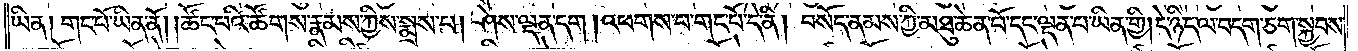ཡིན། གང་པོ་ཡིན་ནོ། །ཚོང་པའི་ཚོགས་རྣམས་ཀྱིས་སྨྲས་པ། ཤེས་ལྡན་དག །འཕགས་པ་གང་པོ་དེ་ནི། བསོད་ནམས་ཀྱི་མཐུ་ཆེན་པོ་དང་ལྡན་པ་ཡིན་གྱི། དེ་ཉིད་ལ་བདག་ཅག་སྐྱབས་
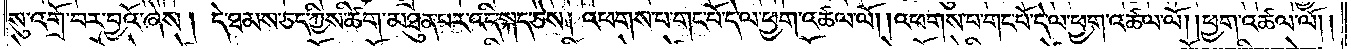སུ་འགྲོ་བར་བྱའོ་ཞེས། དེ་ཐམས་ཅད་ཀྱིས་ཚིག་མཐུན་པར་འདི་སྐད་ཅེས། འཕགས་པ་གང་པོ་དེ་ལ་ཕྱག་འཚལ་ལོ། །འཕགས་པ་གང་པོ་དེ་ལ་ཕྱག་འཚལ་ལོ། །ཕྱག་འཚལ་ལོ། །
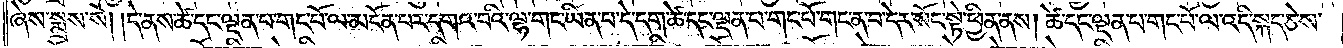ཞེས་སྨྲས་སོ། །དེ་ནས་ཚེ་དང་ལྡན་པ་གང་པོ་ལ་མངོན་པར་དགའ་བའི་ལྷ་གང་ཡིན་པ་དེ་དག་ཚེ་དང་ལྡན་པ་གང་པོ་གང་ན་བ་དེར་སོང་སྟེ་ཕྱིན་ནས། ཚེ་དང་ལྡན་པ་གང་པོ་ལ་འདི་སྐད་ཅེས་
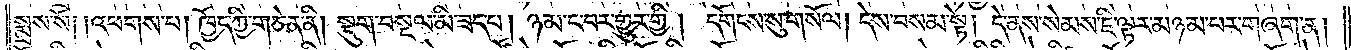སྨྲས་སོ། །འཕགས་པ། ཁྱོད་ཀྱི་གཅེན་ནི། སྡུག་བསྔལ་མི་ཟད་པ། ཉམ་ང་བར་གྱུར་གྱི། དགོངས་སུ་གསོལ། དེས་བསམ་སྟེ། དེ་ནས་སེམས་ཇི་ལྟར་མཉམ་པར་གཞག་ན།
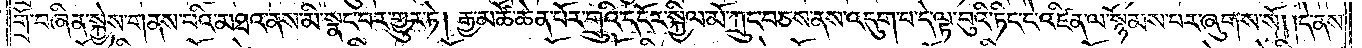གྲོ་བཞིན་སྐྱེས་གནས་པའི་མཐའ་ནས་མི་སྣང་བར་གྱུར་ཏེ། རྒྱ་མཚོ་ཆེན་པོར་གྲུའི་དངོར་སྐྱིལ་མོ་ཀྲུང་བཅས་ནས་འདུག་པ་དེ་ལྟ་བུའི་ཏིང་ངེ་འཛིན་ལ་སྙོམས་པར་ཞུགས་སོ། །དེ་ནས་
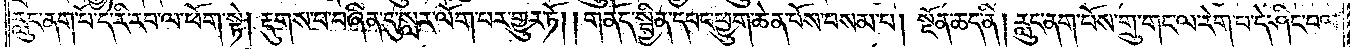རླུང་ནག་པོ་དེ་རི་རབ་ལ་ཕོག་སྟེ། རྡུགས་པ་བཞིན་དུ་སླར་ལོག་པར་གྱུར་ཏོ། །གནོད་སྦྱིན་དབང་ཕྱུག་ཆེན་པོས་བསམ་པ། སྔོན་ཆད་ནི། རླུང་ནག་པོས་གྲུ་གང་ལ་རེག་པ་དེ་ཤིང་བལ་
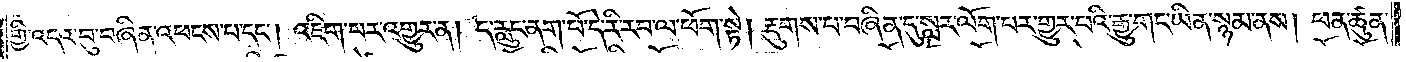གྱི་འདའ་བུ་བཞིན་འཕངས་པ་དང༌། འཇིག་པར་འགྱུར་ན། ད་རླུང་ནག་པོ་དེ་རི་རབ་ལ་ཕོག་སྟེ། རྡུགས་པ་བཞིན་དུ་སླར་ལོག་པར་གྱུར་པའི་རྒྱུ་གང་ཡིན་སྙམ་ནས། ཕན་ཚུན་
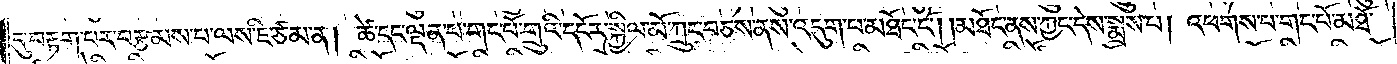དུ་བརྟག་པར་བརྩམས་པ་ལས་ཇི་ཙམ་ན། ཚེ་དང་ལྡན་པ་གང་པོ་གྲུའི་དངོར་སྐྱིལ་མོ་ཀྲུང་བཅས་ནས་འདུག་པ་མཐོང་ངོ༌། །མཐོང་ནས་ཀྱང་དེས་སྨྲས་པ། འཕགས་པ་གང་པོ་མཐོ་
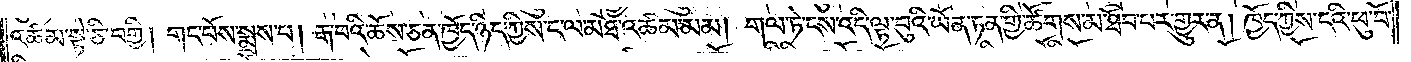འཚམ་སྟེ་ཅི་བགྱི། གང་པོས་སྨྲས་པ། རྒ་བའི་ཆོས་ཅན་ཁྱོད་ཉིད་ཀྱིས་ང་ལ་མཐོ་འཚམ་མམ། གལ་ཏེ་ངས་འདི་ལྟ་བུའི་ཡོན་ཏན་གྱི་ཚོགས་མ་ཐོབ་པར་གྱུར་ན། ཁྱོད་ཀྱིས་ངའི་ཕུ་བོ་
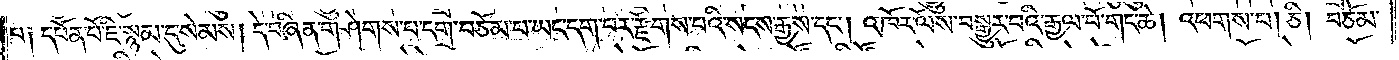པ༑ དཔོན་པོ་ཇི་སྙམ་དུ་སེམས། དེ་བཞིན་གཤེགས་པ་དགྲ་བཅོམ་པ་ཡང་དག་པར་རྫོགས་པའི་སངས་རྒྱས་དང༌། འཁོར་ལོས་བསྒྱུར་བའི་རྒྱལ་པོ་གང་ཆེ། འཕགས་པ། ཅི། བཅོམ་
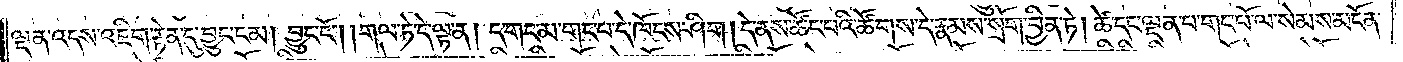ལྡན་འདས་འཇིག་རྟེན་དུ་བྱུང་ངམ། བྱུང་ངོ༌། །གལ་ཏེ་དེ་ལྟ་ན། ད་གང་མ་གང་བ་དེ་ཁོངས་ཤིག །དེ་ནས་ཚོང་པའི་ཚོགས་དེ་རྣམས་སྲོག་བྱིན་ཏེ། ཚེ་དང་ལྡན་པ་གང་པོ་ལ་སེམས་མངོན་
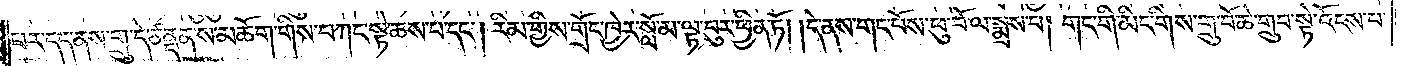པར་དད་ནས་གྲུ་དེ་ཙནྡན་ས་མཆོག་གིས་བཀང་སྟེ་ཆས་པ་དང༌། རིམ་གྱིས་གྲོང་ཁྱེར་སློ་མ་ལྟ་བུར་ཕྱིན་ཏོ། །དེ་ནས་གང་པོས་ཕུ་བོ་ལ་སྨྲས་པ། གང་གི་མིང་གིས་གྲུ་བོ་ཆེ་གྲུབ་སྟེ་འོངས་པ་
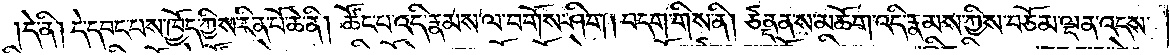།དེ་ནི། དེ་དབང་པས་ཁྱོད་ཀྱིས་རིན་པོ་ཆེ་ནི། ཚོང་པ་འདི་རྣམས་ལ་བགོས་ཤིག །བདག་གིས་ནི། ཙནྡན་ས་མཆོག་འདི་རྣམས་ཀྱིས་བཅོམ་ལྡན་འདས་
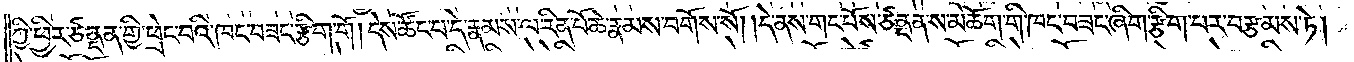ཀྱི་ཕྱིར་ཙནྡན་གྱི་ཕྲེང་བའི་ཁང་བཟང་རྩིག་གོ །དེས་ཚོང་པ་དེ་རྣམས་ལ་རིན་པོ་ཆེ་རྣམས་བགོས་སོ། །དེ་ནས་གང་པོས་ཙནྡན་ས་མཆོག་གི་ཁང་བཟང་ཞིག་རྩིག་པར་བརྩམས་ཏེ།
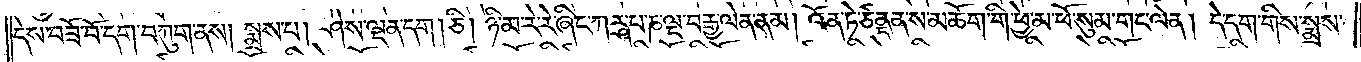དེས་བཟོ་བོ་དག་བཀུག་ནས། སྨྲས་པ། ཤེས་ལྡན་དག །ཅི། ཉི་མ་རེ་རེ་ཞིང་ཀརྴ་པ་ཎ་ལྔ་བརྒྱད་ལེན་ནམ། འོན་ཏེ་ཙནྡན་ས་མཆོག་གི་ཕྱེ་མ་ཕོ་སུམ་གང་ལེན། དེ་དག་གིས་སྨྲས་
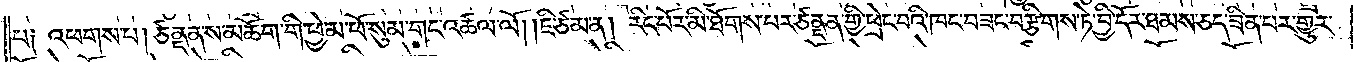པ༑ འཕགས་པ། ཙནྡན་ས་མཆོག་གི་ཕྱེ་མ་ཕོ་སུམ་གང་འཚལ་ལོ། །ཇི་ཙམ་ན། རིང་པོར་མི་ཐོགས་པར་ཙནྡན་གྱི་ཕྲེང་བའི་ཁང་བཟང་བརྩིགས་ཏེ་བྱི་དོར་ཐམས་ཅད་ཟིན་པར་གྱུར་
